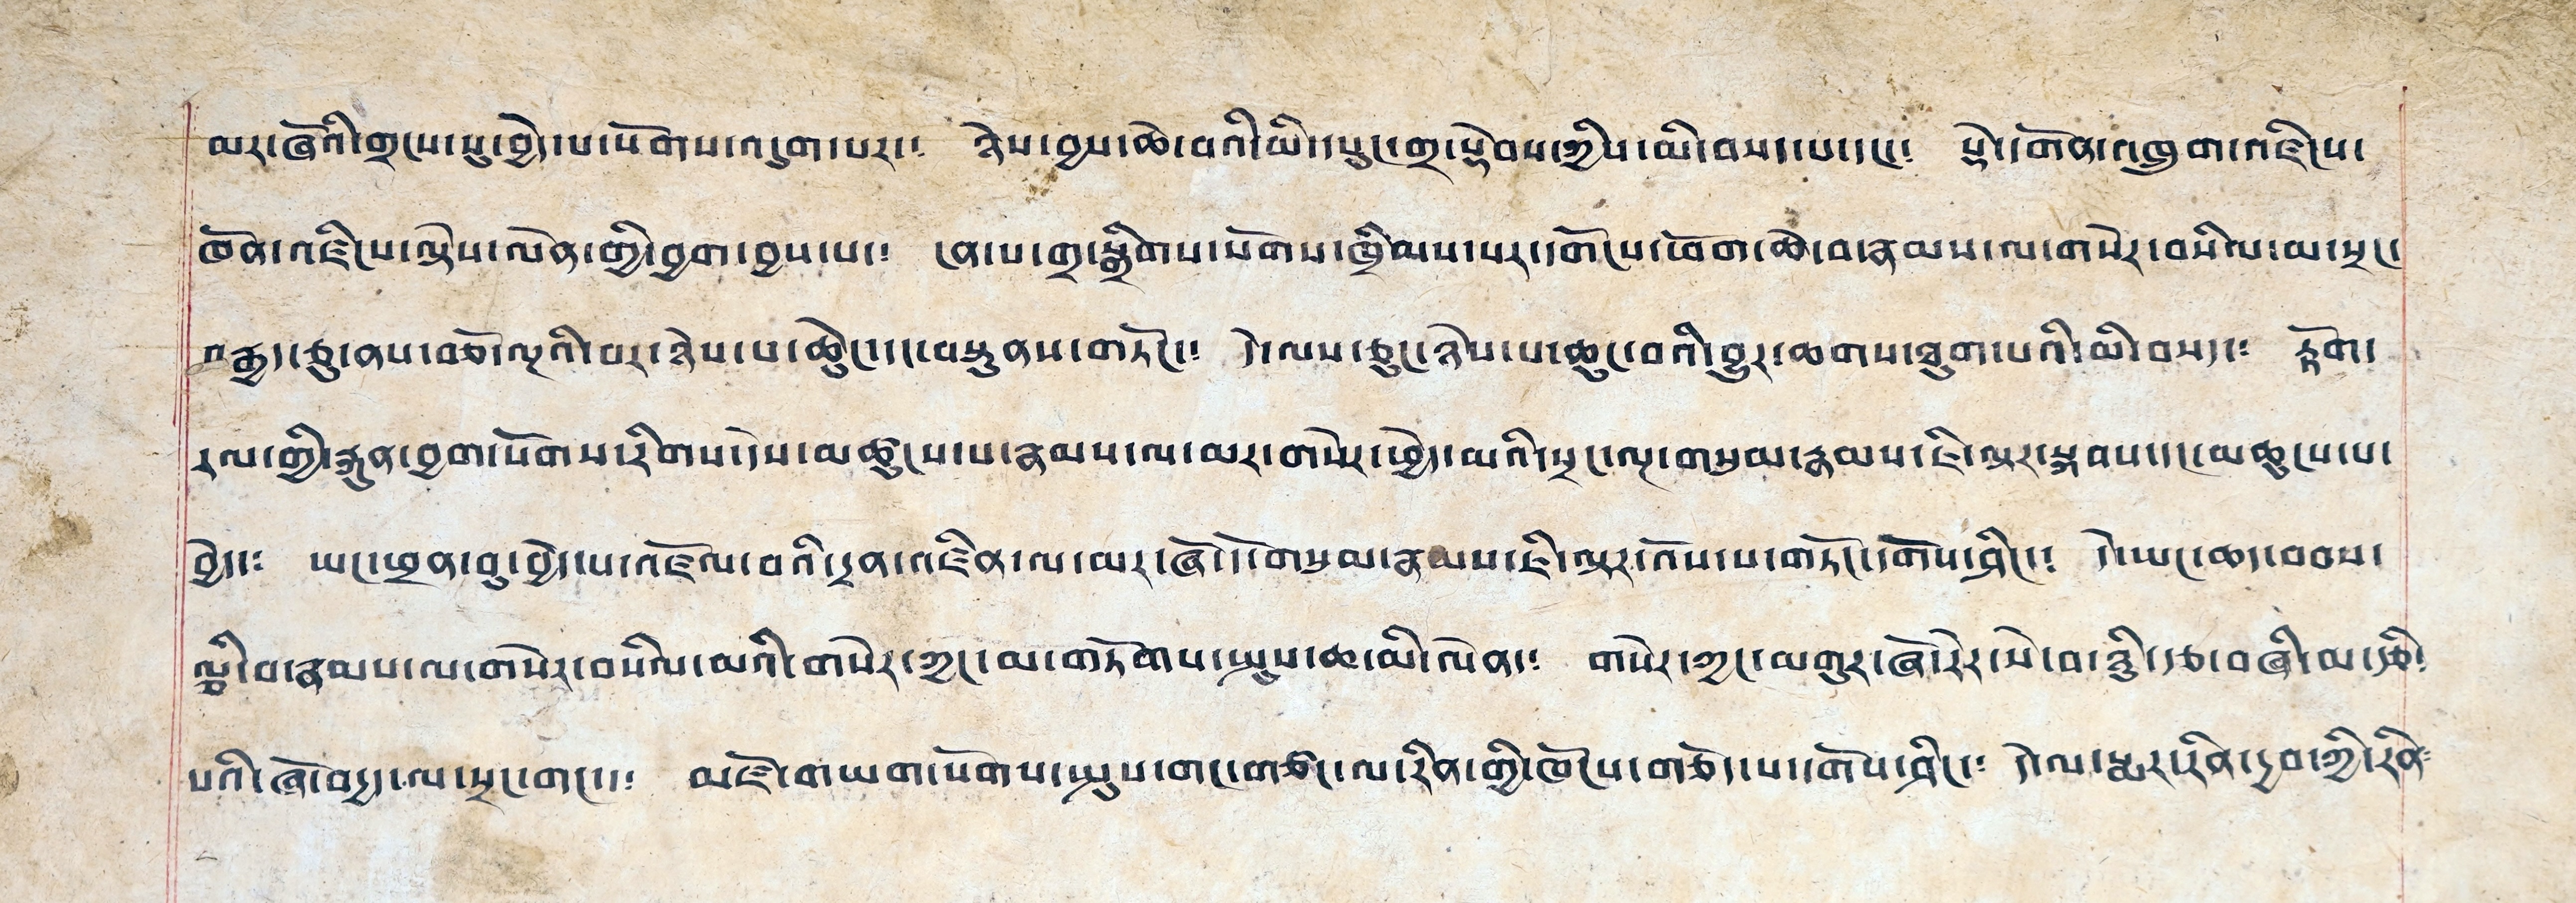མར་ཞོའི་གྲངས་སུ་བྱེད་པ་སོགས་འདུག་པར་༴ ཉེས་བྱས་ཆེ་བའི་མི་དཔུང་གྲ་སྡེབས་ཀྱིས་མི་བསད་པ་དང་༴ སྡེ་དགོན་འཁྲུག་འཛིངས་
ཁོན་འཛིངས་ལྟོས་ལེན་གྱི་བྱག་བྱས་པ་༴ ངན་པ་གྲ་སྒྲིགས་སོགས་ཁྲིམས་པར་དགོངས་ཕོག་ཆེ་བ་རྣམས་ལ་གསེར་བསིལ་མ་སྲང་
བརྒྱད་ཅུ་ནས་བཅོ་ལྔའི་བར་ཉེས་པ་ཆེུང་དང་བསྟུནས་གཏོང་༴ དེ་ལས་ཅུང་ཉེས་པ་ཆུང་བའི་བྱུར་ཆགས་ཐུག་པའི་མི་བསད་༴ རྟོག་
རལ་གྱི་རྐུན་བྱག་སོགས་རིགས་དེས་མཚུངས་པ་རྣམས་ལ་མར་གསེར་ཕྱེད་མའི་སྲང་ལྔ་གསུམ་རྣམས་ཇི་ལྟར་སྐབས་དང་མཚུངས་པ་
བྱེད་༴ ཡང་ཕྲན་བུ་བྱེད་པ་འཛོལ་བའི་དྲན་འཛིན་ལ་མར་ཞོ་དོ་གསུམ་རྣམས་ཇི་ལྟར་འོས་པ་གཏོང་དགོས་ཤིང་༴ དེ་ཡང་ཆད་བབས་
ལྕི་བ་རྣམས་ལ་གསེར་བསིལ་མའི་གསེར་ཀྱང་མ་གཏོགས་སྤུས་ཆ་མི་ལེན་༴ གསེར་ཀྱང་མགུར་ཞོ་རེར་སེ་བ་ཉིུ་རྩ་བཞི་མ་རྩི༴
པའི་ཞོ་བདྱ་ལ་སྲང་གང་༴ མཛོ་གཡག་སོགས་སྤུས་གང་གཙང་ལ་རིན་གྱི་ཁོངས་གཅོད་པ་དགོས་ཤིང་༴ དེ་ལ་སྨར་རིན་དྱབ་ཀྱི་རིན༴
